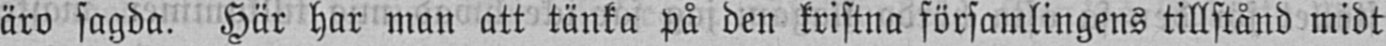äro sagda. Här har man att tänka på den kristna församlingens tillstånd midt
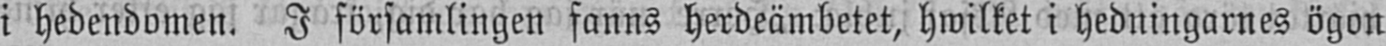i hedendomen. I församlingen fanns herdeämbetet, hwilket i hedningarnes ögon
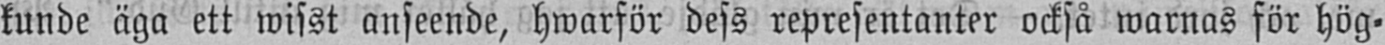kunde äga ett wisst anseende, hwarför dess representanter också warnas för hög-
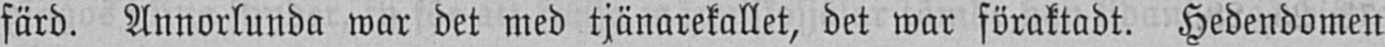färd. Annorlunda war det med tjänarekallet, det war föraktadt. Hedendomen
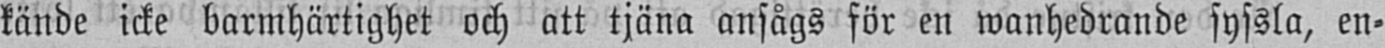kände icke barmhärtighet och att tjäna ansågs för en wanhedrande syssla, en-
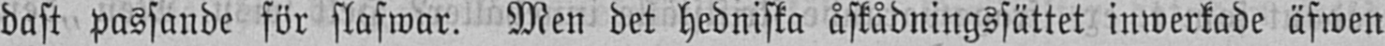dast passande för slafwar. Men det hedniska åskådningssättet inwerkade äfwen
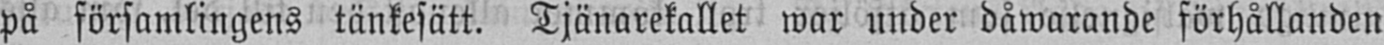på församlingens tänkesätt. Tjänarekallet war under dåwarande förhållanden
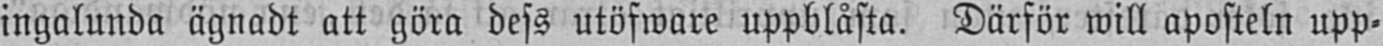ingalunda ägnadt att göra dess utöfware uppblåsta. Därför will aposteln upp-
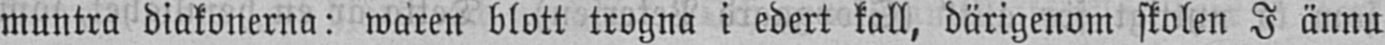muntra diakonerna: waren blott trogna i edert kall, därigenom skolen I ännu
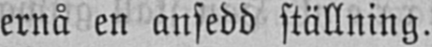ernå en ansedd ställning.
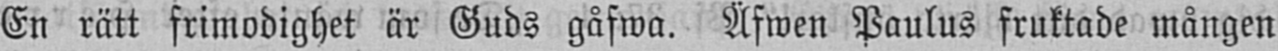En rätt frimodighet är Guds gåfwa. Äfwen Paulus fruktade mången
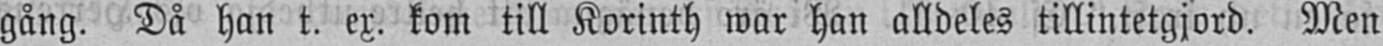gång. Då han t. ex. kom till Korinth war han alldeles tillintetgjord. Men
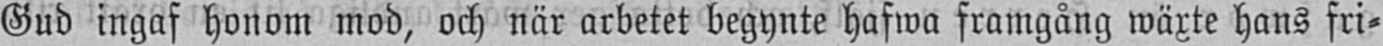Gud ingaf honom mod, och när arbetet begynte hafwa framgång wäxte hans fri-
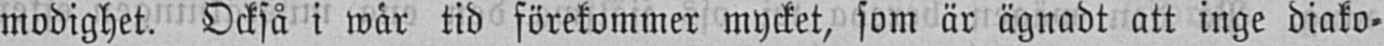modighet. Också i wår tid förekommer mycket, som är ägnadt att inge diako-
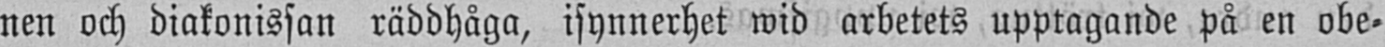nen och diakonissan räddhåga, isynnerhet wid arbetets upptagande på en obe-
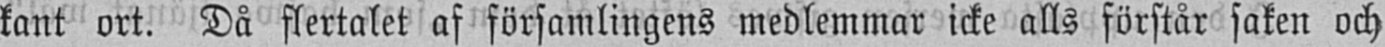kant ort. Då flertalet af församlingens medlemmar icke alls förstår saken och
